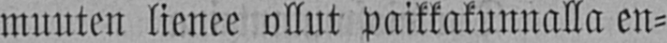muuten lienee ollut paikkakunnalla en-
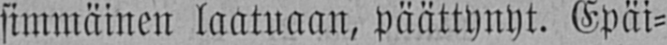simmäinen laatuaan, päättynyt. Epäi-
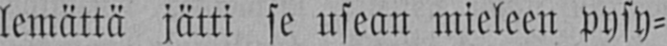lemättä jätti se usean mieleen pysy-
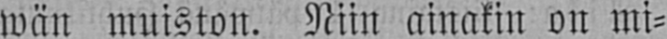wän muiston. Niin ainakin on mi-
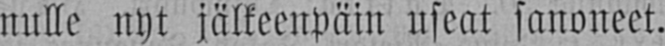nulle nyt jälkeenpäin useat sanoneet.
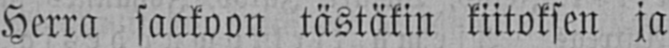Herra saakoon tästäkin kiitoksen ja
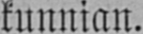kunnian.
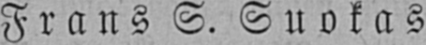Frans S. Suokas
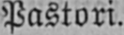Pastori.
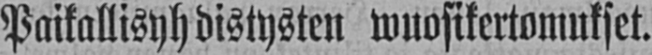Paikallisyhdistysten wuosikertomukset.
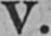V.
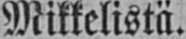Mikkelistä.
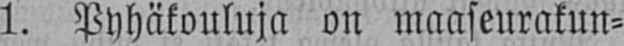1. Pyhäkouluja on maaseurakun-
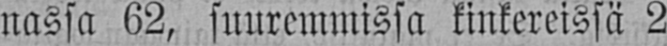nassa 62, suuremmissa kinkereissä 2
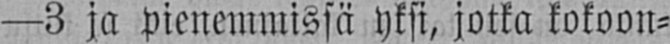—3 ja pienemmissä yksi, jotka kokoon-
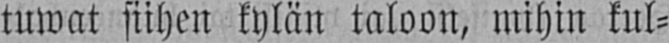tuwat siihen kylän taloon, mihin kul-
